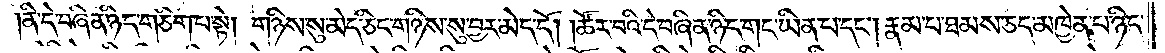ནི་དེ་བཞིན་ཉིད་གཅིག་པ་སྟེ། གཉིས་སུ་མེད་ཅིང་གཉིས་སུ་བྱར་མེད་དོ། །ཚོར་བའི་དེ་བཞིན་ཉིད་གང་ཡིན་པ་དང༌། རྣམ་པ་ཐམས་ཅད་མཁྱེན་པ་ཉིད་
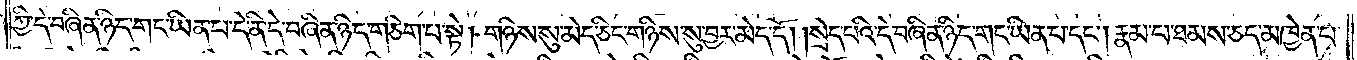ཀྱི་དེ་བཞིན་ཉིད་གང་ཡིན་པ་དེ་ནི་དེ་བཞིན་ཉིད་གཅིག་པ་སྟེ། གཉིས་སུ་མེད་ཅིང་གཉིས་སུ་བྱར་མེད་དོ། །སྲེད་པའི་དེ་བཞིན་ཉིད་གང་ཡིན་པ་དང༌། རྣམ་པ་ཐམས་ཅད་མཁྱེན་པ་
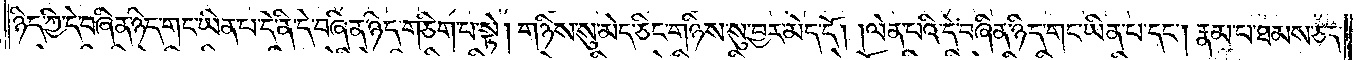ཉིད་ཀྱི་དེ་བཞིན་ཉིད་གང་ཡིན་པ་དེ་ནི་དེ་བཞིན་ཉིད་གཅིག་པ་སྟེ། གཉིས་སུ་མེད་ཅིང་གཉིས་སུ་བྱར་མེད་དོ། །ལེན་པའི་དེ་བཞིན་ཉིད་གང་ཡིན་པ་དང༌། རྣམ་པ་ཐམས་ཅད་
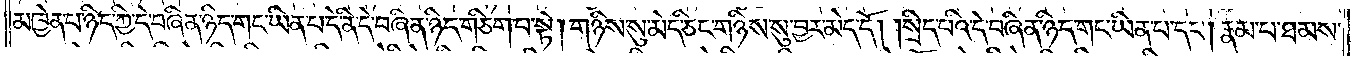མཁྱེན་པ་ཉིད་ཀྱི་དེ་བཞིན་ཉིད་གང་ཡིན་པ་དེ་ནི་དེ་བཞིན་ཉིད་གཅིག་པ་སྟེ། གཉིས་སུ་མེད་ཅིང་གཉིས་སུ་བྱར་མེད་དོ། །སྲིད་པའི་དེ་བཞིན་ཉིད་གང་ཡིན་པ་དང༌། རྣམ་པ་ཐམས་
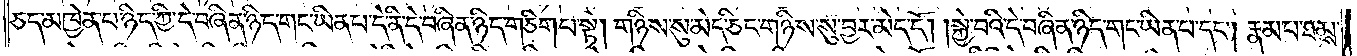ཅད་མཁྱེན་པ་ཉིད་ཀྱི་དེ་བཞིན་ཉིད་གང་ཡིན་པ་དེ་ནི་དེ་བཞིན་ཉིད་གཅིག་པ་སྟེ། གཉིས་སུ་མེད་ཅིང་གཉིས་སུ་བྱར་མེད་དོ། །སྐྱེ་བའི་དེ་བཞིན་ཉིད་གང་ཡིན་པ་དང༌། རྣམ་པ་ཐམས་
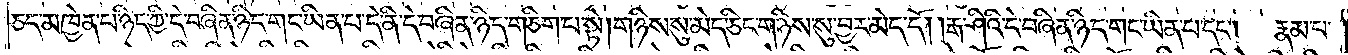ཅད་མཁྱེན་པ་ཉིད་ཀྱི་དེ་བཞིན་ཉིད་གང་ཡིན་པ་དེ་ནི་དེ་བཞིན་ཉིད་གཅིག་པ་སྟེ། གཉིས་སུ་མེད་ཅིང་གཉིས་སུ་བྱར་མེད་དོ། །རྒ་ཤིའི་དེ་བཞིན་ཉིད་གང་ཡིན་པ་དང༌། རྣམ་པ་
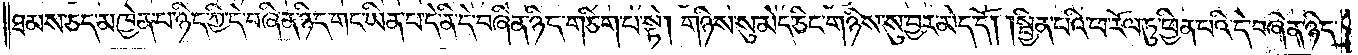ཐམས་ཅད་མཁྱེན་པ་ཉིད་ཀྱི་དེ་བཞིན་ཉིད་གང་ཡིན་པ་དེ་ནི་དེ་བཞིན་ཉིད་གཅིག་པ་སྟེ། གཉིས་སུ་བྱར་མེད་ཅིང་གཉིས་སུ་བྱར་མེད་དོ། །སྦྱིན་པའི་ཕ་རོལ་ཏུ་ཕྱིན་པའི་དེ་བཞིན་ཉིད་
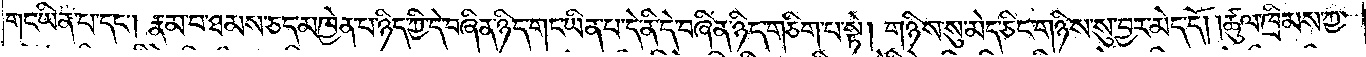གང་ཡིན་པ་དང༌། རྣམ་པ་ཐམས་ཅད་མཁྱེན་པ་ཉིད་ཀྱི་དེ་བཞིན་ཉིད་གང་ཡིན་པ་དེ་ནི་དེ་བཞིན་ཉིད་གཅིག་པ་སྟེ། གཉིས་སུ་མེད་ཅིང་གཉིས་སུ་བྱར་མེད་དོ། །ཚུལ་ཁྲིམས་ཀྱི་
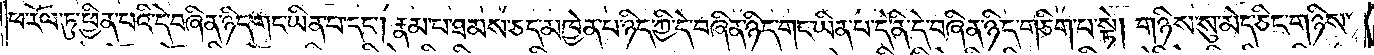ཕ་རོལ་ཏུ་ཕྱིན་པའི་དེ་བཞིན་ཉིད་གང་ཡིན་པ་དང༌། རྣམ་པ་ཐམས་ཅད་མཁྱེན་པ་ཉིད་ཀྱི་དེ་བཞིན་ཉིད་གང་ཡིན་པ་དེ་ནི་དེ་བཞིན་ཉིད་གཅིག་པ་སྟེ། གཉིས་སུ་མེད་ཅིང་གཉིས་
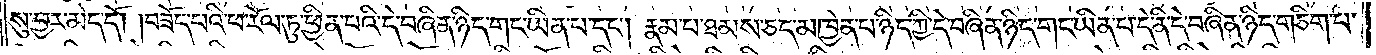སུ་བྱར་མེད་དོ། །བཟོད་པའི་ཕ་རོལ་ཏུ་ཕྱིན་པའི་དེ་བཞིན་ཉིད་གང་ཡིན་པ་དང༌། རྣམ་པ་ཐམས་ཅད་མཁྱེན་པ་ཉིད་ཀྱི་དེ་བཞིན་ཉིད་གང་ཡིན་པ་དེ་ནི་དེ་བཞིན་ཉིད་གཅིག་པ་
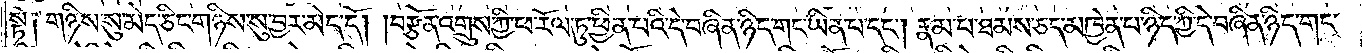སྟེ༑ གཉིས་སུ་མེད་ཅིང་གཉིས་སུ་བྱར་མེད་དོ། །བརྩོན་འགྲུས་ཀྱི་ཕ་རོལ་ཏུ་ཕྱིན་པའི་དེ་བཞིན་ཉིད་གང་ཡིན་པ་དང༌། རྣམ་པ་ཐམས་ཅད་མཁྱེན་པ་ཉིད་ཀྱི་དེ་བཞིན་ཉིད་གང་
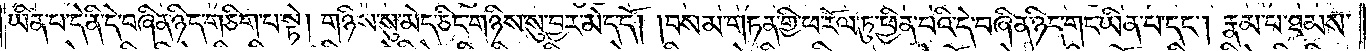ཡིན་པ་དེ་ནི་དེ་བཞིན་ཉིད་གཅིག་པ་སྟེ། གཉིས་སུ་མེད་ཅིང་གཉིས་སུ་བྱར་མེད་དོ། །བསམ་གཏན་གྱི་ཕ་རོལ་ཏུ་ཕྱིན་པའི་དེ་བཞིན་ཉིད་གང་ཡིན་པ་དང༌། རྣམ་པ་ཐམས་
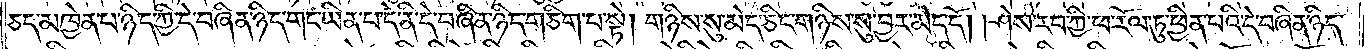ཅད་མཁྱེན་པ་ཉིད་ཀྱི་དེ་བཞིན་ཉིད་གང་ཡིན་པ་དེ་ནི་དེ་བཞིན་ཉིད་གཅིག་པ་སྟེ། གཉིས་སུ་མེད་ཅིང་གཉིས་སུ་བྱར་མེད་དོ། །ཤེས་རབ་ཀྱི་ཕ་རོལ་ཏུ་ཕྱིན་པའི་དེ་བཞིན་ཉིད་
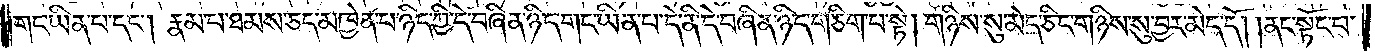གང་ཡིན་པ་དང༌། རྣམ་པ་ཐམས་ཅད་མཁྱེན་པ་ཉིད་ཀྱི་དེ་བཞིན་ཉིད་གང་ཡིན་པ་དེ་ནི་དེ་བཞིན་ཉིད་གཅིག་པ་སྟེ། གཉིས་སུ་མེད་ཅིང་གཉིས་སུ་བྱར་མེད་དོ། །ནང་སྟོང་པ་
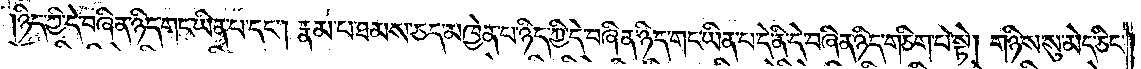ཉིད་ཀྱི་དེ་བཞིན་ཉིད་གང་ཡིན་པ་དང༌། རྣམ་པ་ཐམས་ཅད་མཁྱེན་པ་ཉིད་ཀྱི་དེ་བཞིན་ཉིད་གང་ཡིན་པ་དེ་ནི་དེ་བཞིན་ཉིད་གཅིག་པ་སྟེ། གཉིས་སུ་མེད་ཅིང་
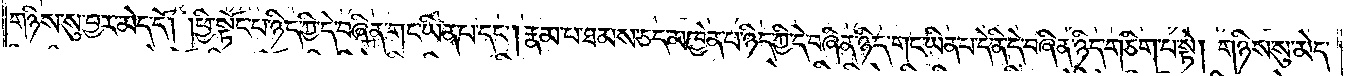གཉིས་སུ་བྱར་མེད་དོ། །ཕྱི་སྟོང་པ་ཉིད་ཀྱི་དེ་བཞིན་ཉིད་གང་ཡིན་པ་དང༌། རྣམ་པ་ཐམས་ཅད་མཁྱེན་པ་ཉིད་ཀྱི་དེ་བཞིན་ཉིད་གང་ཡིན་པ་དེ་ནི་དེ་བཞིན་ཉིད་གཅིག་པ་སྟེ། གཉིས་སུ་མེད་
